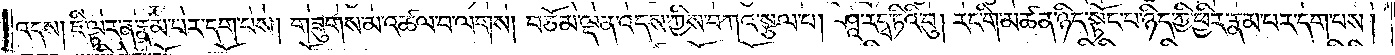འདས། ཇི་ལྟར་ན་རྣམ་པར་དག་པས། གཟུགས་མ་འཚལ་བ་ལགས། བཅོམ་ལྡན་འདས་ཀྱིས་བཀའ་སྩལ་པ། ཤཱ་རདྭ་ཏིའི་བུ། རང་གི་མཚན་ཉིད་སྟོང་པ་ཉིད་ཀྱི་ཕྱིར་རྣམ་པར་དག་པས།
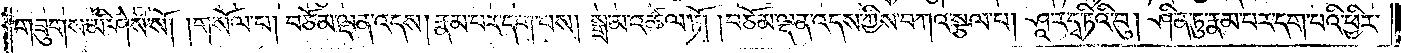གཟུགས་མི་ཤེས་སོ། །གསོལ་པ། བཅོམ་ལྡན་འདས། རྣམ་པར་དག་པས། སྒྲ་མ་འཚལ་ཏོ། །བཅོམ་ལྡན་འདས་ཀྱིས་བཀའ་སྩལ་པ། ཤཱ་ར་དྭ་ཏིའི་བུ། ཤིན་ཏུ་རྣམ་པར་དག་པའི་ཕྱིར་
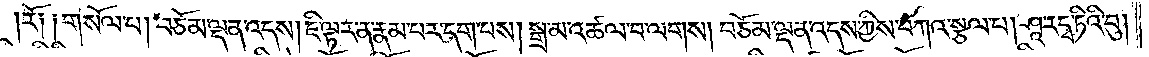རོ༑ ༑གསོལ་པ། བཅོམ་ལྡན་འདས། ཇི་ལྟར་ན་རྣམ་པར་དག་པས། སྒྲ་མ་འཚལ་བ་ལགས། བཅོམ་ལྡན་འདས་ཀྱིས་བཀའ་སྩལ་པ། ཤཱ་ར་དྭ་ཏིའི་བུ།
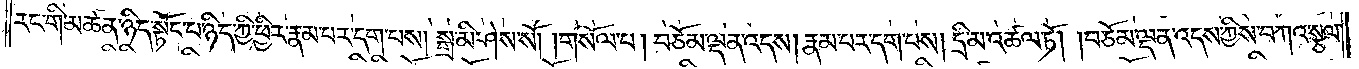རང་གི་མཚན་ཉིད་སྟོང་པ་ཉིད་ཀྱི་ཕྱིར་རྣམ་པར་དག་པས། སྒྲ་མི་ཤེས་སོ། །གསོལ་པ། བཅོམ་ལྡན་འདས། རྣམ་པར་དག་པས། དྲི་མ་འཚལ་ཏོ། །བཅོམ་ལྡན་འདས་ཀྱིས་བཀའ་སྩལ་
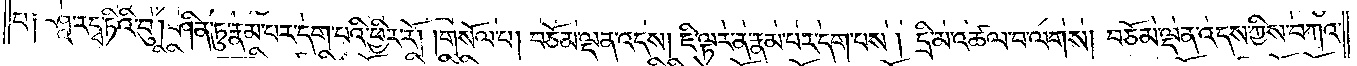པ༑ ཤཱ་ར་དྭ་ཏིའི་བུ། ཤིན་ཏུ་རྣམ་པར་དག་པའི་ཕྱིར་རོ། །གསོལ་པ། བཅོམ་ལྡན་འདས། ཇི་ལྟར་ན་རྣམ་པར་དག་པས། དྲི་མ་འཚལ་བ་ལགས། བཅོམ་ལྡན་འདས་ཀྱིས་བཀའ་
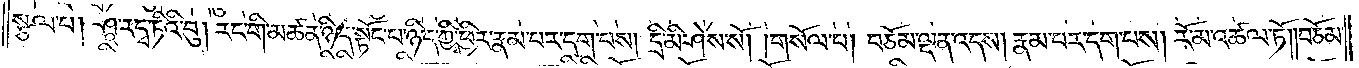སྩལ་པ། ཤཱ་ར་དྭ་ཏིའི་བུ། རང་གི་མཚན་ཉིད་སྟོང་པ་ཉིད་ཀྱི་ཕྱིར་རྣམ་པར་དག་པས། དྲི་མི་ཤེས་སོ། །གསོལ་པ། བཅོམ་ལྡན་འདས། རྣམ་པར་དག་པས། རོ་མ་འཚལ་ཏོ། །བཅོམ་
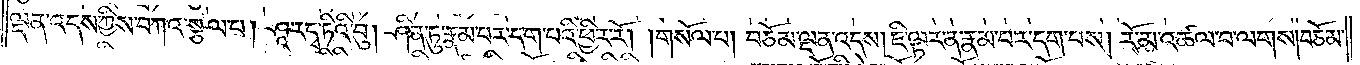ལྡན་འདས་ཀྱིས་བཀའ་སྩལ་པ། ཤཱ་ར་དྭ་ཏིའི་བུ། ཤིན་ཏུ་རྣམ་པར་དག་པའི་ཕྱིར་རོ། །གསོལ་པ། བཅོམ་ལྡན་འདས། ཇི་ལྟར་ན་རྣམ་པར་དག་པས། རོ་མ་འཚལ་བ་ལགས། བཅོམ་
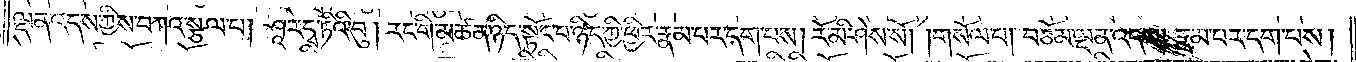ལྡན་འདས་ཀྱིས་བཀའ་སྩལ་པ། ཤཱ་ར་དྭ་ཏིའི་བུ། རང་གི་མཚན་ཉིད་སྟོང་པ་ཉིད་ཀྱི་ཕྱིར་རྣམ་པར་དག་པས། རོ་མི་ཤེས་སོ། །གསོལ་པ། བཅོམ་ལྡན་འདས། རྣམ་པར་དག་པས།
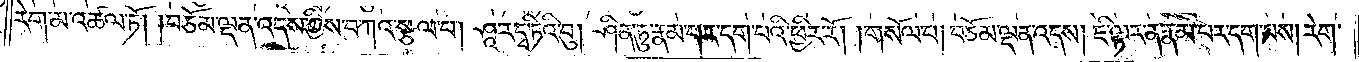རེག་མ་འཚལ་ཏོ། །བཅོམ་ལྡན་འདས་ཀྱིས་བཀའ་སྩལ་པ། ཤཱ་ར་དྭ་ཏིའི་བུ། ཤིན་ཏུ་རྣམ་པར་དག་པའི་ཕྱིར་རོ། །གསོལ་པ། བཅོམ་ལྡན་འདས། ཇི་ལྟར་ན་རྣམ་པར་དག་པས། རེག་
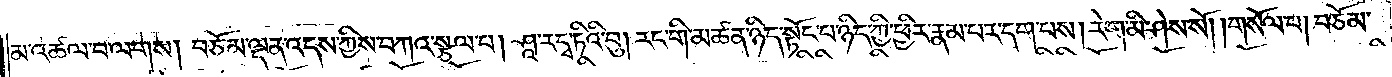མ་འཚལ་བ་ལགས། བཅོམ་ལྡན་འདས་ཀྱིས་བཀའ་སྩལ་པ། ཤཱ་ར་དྭ་ཏིའི་བུ། རང་གི་མཚན་ཉིད་སྟོང་པ་ཉིད་ཀྱི་ཕྱིར་རྣམ་པར་དག་པས། རེག་མི་ཤེས་སོ། །གསོལ་པ། བཅོམ་
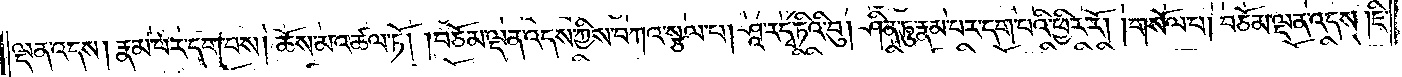ལྡན་འདས། རྣམ་པར་དག་པས། ཆོས་མ་འཚལ་ཏོ། །བཅོམ་ལྡན་འདས་ཀྱིས་བཀའ་སྩལ་པ། ཤཱ་ར་དྭ་ཏིའི་བུ། ཤིན་ཏུ་རྣམ་པར་དག་པའི་ཕྱིར་རོ། །གསོལ་པ། བཅོམ་ལྡན་འདས། ཇི་
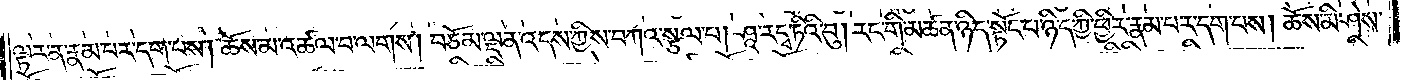ལྟར་ན་རྣམ་པར་དག་པས། ཆོས་མ་འཚལ་བ་ལགས། བཅོམ་ལྡན་འདས་ཀྱིས་བཀའ་སྩལ་པ། ཤཱ་རདྭ་ཏིའི་བུ། རང་གི་མཚན་ཉིད་སྟོང་པ་ཉིད་ཀྱི་ཕྱིར་རྣམ་པར་དག་པས། ཆོས་མི་ཤེས་
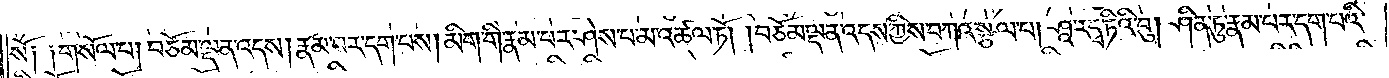སོ༑ ༑གསོལ་པ། བཅོམ་ལྡན་འདས། རྣམ་པར་དག་པས། མིག་གི་རྣམ་པར་ཤེས་པ་མ་འཚལ་ཏོ། །བཅོམ་ལྡན་འདས་ཀྱིས་བཀའ་སྩལ་པ། ཤཱ་རདྭ་ཏིའི་བུ། ཤིན་ཏུ་རྣམ་པར་དག་པའི་
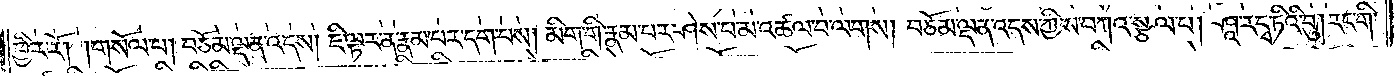ཕྱིར་རོ། །གསོལ་པ། བཅོམ་ལྡན་འདས། ཇི་ལྟར་ན་རྣམ་པར་དག་པས། མིག་གི་རྣམ་པར་ཤེས་པ་མ་འཚལ་བ་ལགས། བཅོམ་ལྡན་འདས་ཀྱིས་བཀའ་སྩལ་པ། ཤཱ་རདྭ་ཏིའི་བུ། རང་གི་
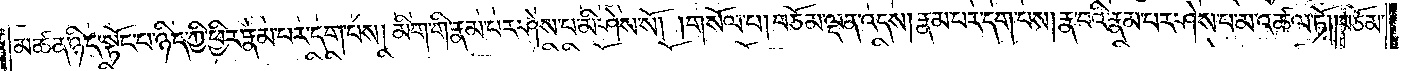མཚན་ཉིད་སྟོང་པ་ཉིད་ཀྱི་ཕྱིར་རྣམ་པར་དག་པས། མིག་གི་རྣམ་པར་ཤེས་པ་མི་ཤེས་སོ། །གསོལ་པ། བཅོམ་ལྡན་འདས། རྣམ་པར་དག་པས། རྣ་བའི་རྣམ་པར་ཤེས་པ་མ་འཚལ་ཏོ། །བཅོམ་
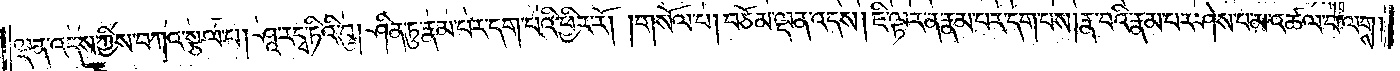ལྡན་འདས་ཀྱིས་བཀའ་སྩལ་པ། ཤཱ་རདྭ་ཏིའི་བུ། ཤིན་ཏུ་རྣམ་པར་དག་པའི་ཕྱིར་རོ། །གསོལ་པ། བཅོམ་ལྡན་འདས། ཇི་ལྟར་རྣམ་པར་དག་པས། རྣ་བའི་རྣམ་པར་ཤེས་པ་མ་འཚལ་བ་ལགས།
